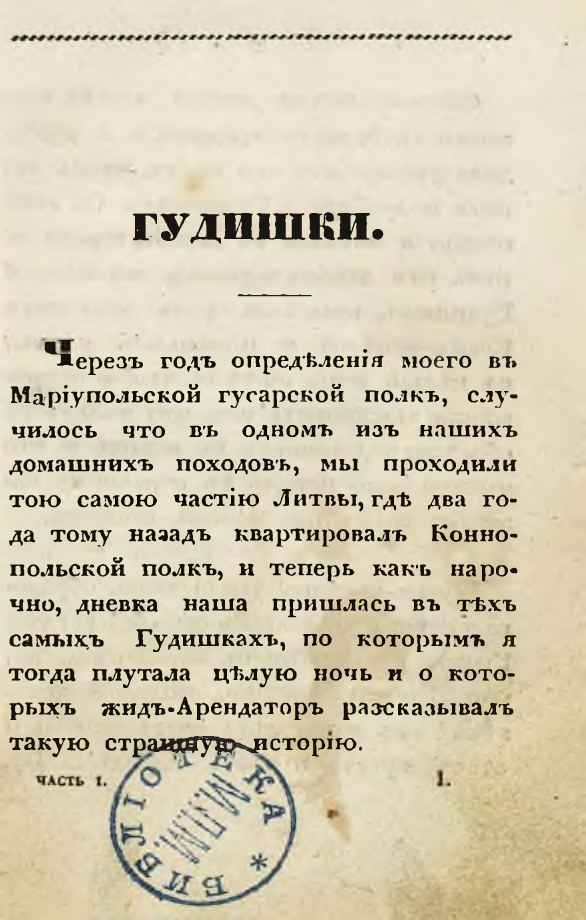ГУДИШКИ.
Черезъ годъ опредѣленія моего въ Маріупольской гусарской полкъ, случилось что въ одномъ изъ нашихъ домашнихъ походовъ, мы проходили тою самою частію Литвы, гдѣ два года тому назадъ квартировалъ Коннопольской полкъ, и теперь какъ нарочно, дневка наша пришлась въ тѣхъ самыхъ Гудишкахъ, по которымъ я тогда плутала цѣлую ночь и о которыхъ жидъ-Арендаторъ разсказывалъ такую страшную исторію.
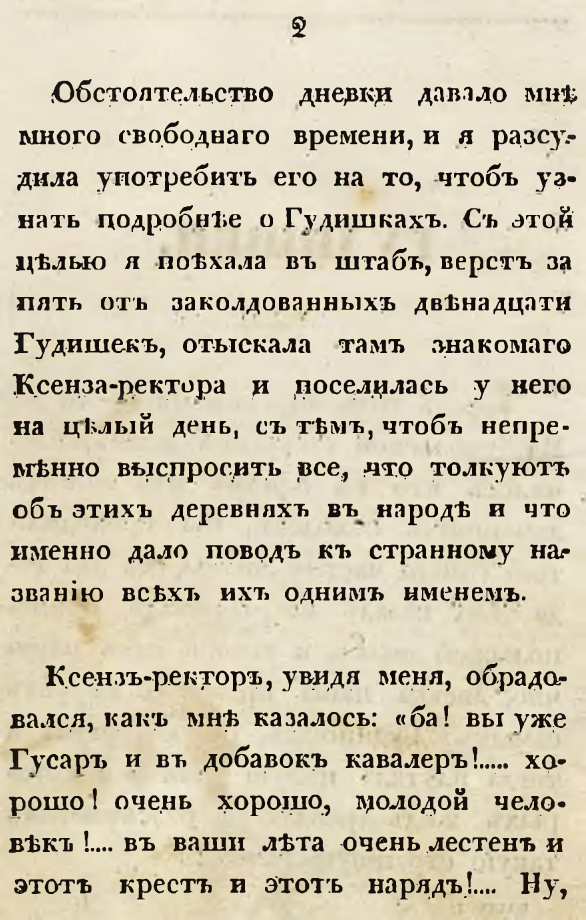2
Обстоятельство дневки давало мнѣ много свободнаго времени, и я разсудила употребить его на то, чтобъ узнать подробнѣе о Гудишкахъ. Съ этой цѣлью я поѣхала въ штабъ, верстъ за пять отъ заколдованныхъ двѣнадцати Гудишекъ, отыскала тамъ знакомаго Ксенза-ректора и поселилась у него на цѣлый день, съ тѣмъ, чтобъ непремѣнно выспросить все, что толкуютъ объ этихъ деревняхъ въ народѣ и что именно дало поводъ къ странному названію всѣхъ ихъ однимъ именемъ.
Ксензъ-ректоръ, увидя меня, обрадовался, какъ мнѣ казалось: «ба! вы уже Гусаръ и въ добавокъ кавалеръ!... хорошо! очень хорошо, молодой человѣкъ!... въ ваши лѣта очень лестенъ и этотъ крестъ и это тъ нарядъ!... Ну,
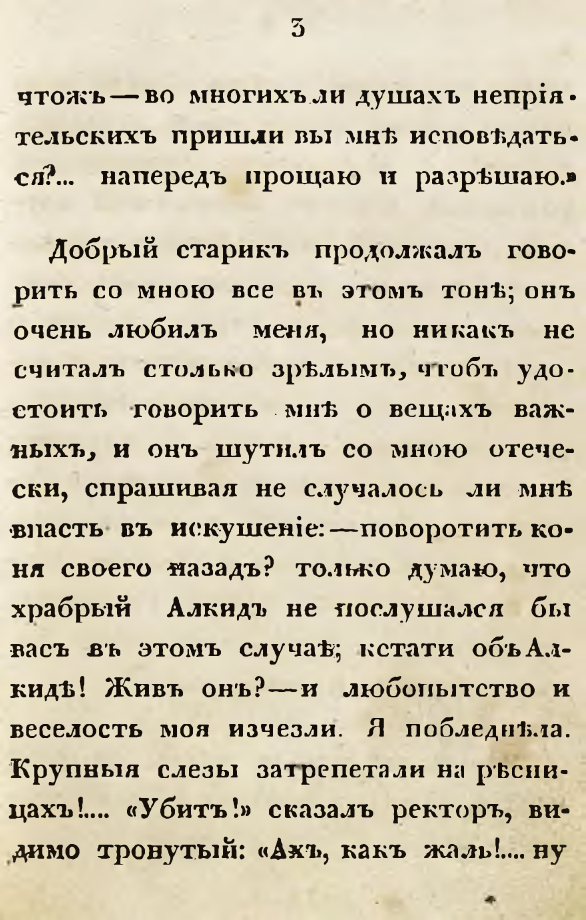3
чтожъ — во многихъ ли душахъ непріятельскихъ пришли вы мнъ исповедаться?... напередъ прощаю и разрѣшаю.»
Добрый старикъ продолжалъ говорить со мною все въ этомъ тонѣ; онъ очень любилъ меня, но никакъ не считалъ столько зрѣлымъ, чтобъ удостоить говорить мнѣ о вещахъ важныхъ, и онъ шутилъ со мною отечески, спрашивая не случалось ли мнѣ впасть въ искушеніе: — поворотить коня своего назадъ? только думаю, что храбрый Алкидъ не послушался бы васъ въ этомъ случаѣ; кстати объ Алкидѣ! Живъ онъ? — и любопытство и веселость моя изчезли. Я побледнѣла. Крупныя слезы затрепетали на рѣсницахъ!.. «Убитъ!» сказалъ ректоръ, видимо тронутый: «Ахъ, какъ жаль!... ну
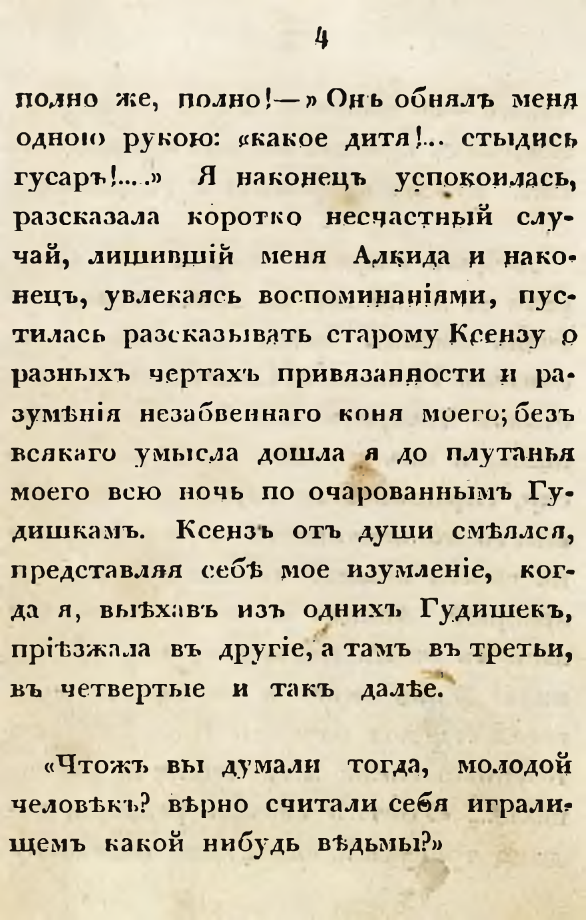4
полно же, полно!—» Онъ обнялъ меня одною рукою: «какое дитя!.. стыдись гусаръ!...» Я наконецъ успокоилась, разсказала коротко несчастный случай, лишившій меня Алкида и наконецъ, увлекаясь воспоминаніями, пустилась разсказывать старому Ксензу о разныхъ чертахъ привязанности и разумѣнія незабвеннаго коня моего; безъ всякаго умысла дошла я до плутанья моего всю ночь по очарованнымъ Гудишкамъ. Ксензь отъ души смѣялся, представляя себѣ мое изумленіе, когда я, выѣхавъ изъ однихъ Гудишекъ, пріѣзжала въ другіе, а тамъ въ третьи, въ четвертые и такъ далѣе.
«Чтожъ вы думали тогда, молодой человѣкь? вѣрно считали себя игралищемъ какой нибудь вѣдьмы?»
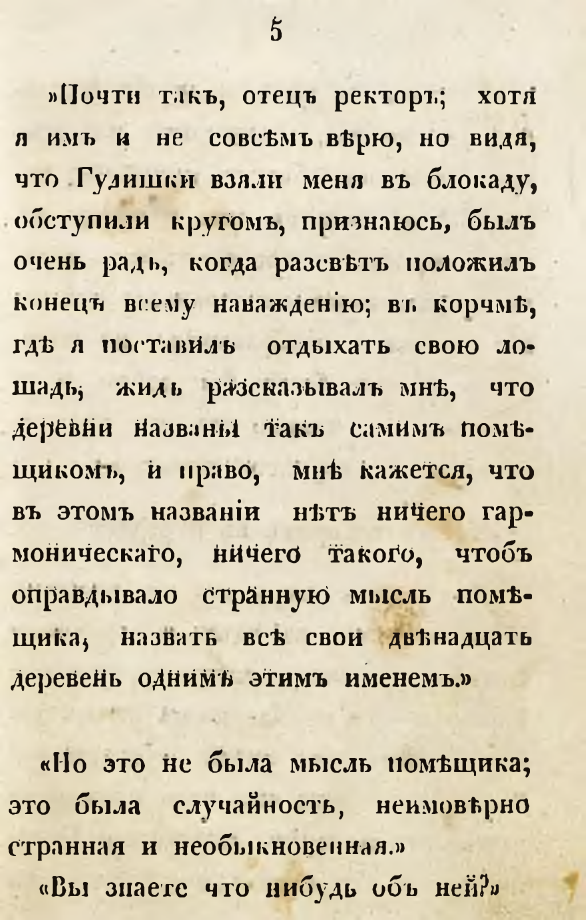5
«Почти такъ, отецъ ректоръ; хотя я имъ и не совсѣмъ вѣрю, но видя, что Гудишки взяли меня въ блокаду, обступили кругомъ, признаюсь, былъ очень радъ, когда разсвѣтъ положилъ конецъ всему наважденію; въ корчмѣ, гдѣ я поставилъ отдыхать свою лошадъ жидъ разсказывалъ мнѣ, что деревни названы такъ самимъ помѣщикомъ, и право, мнѣ кажется, что въ этомъ названіи нѣтъ ничего гармоническаго, ничего такого, чтобъ оправдывало странную мысль помѣщика, назвать всѣ свои двѣнадцать деревень одним этимъ именемъ.»
«Но это не была мысль помѣщика; это была случайность, неимовѣрно странная и необыкновенная.»
«Вы знаете что нибудь объ ней?»
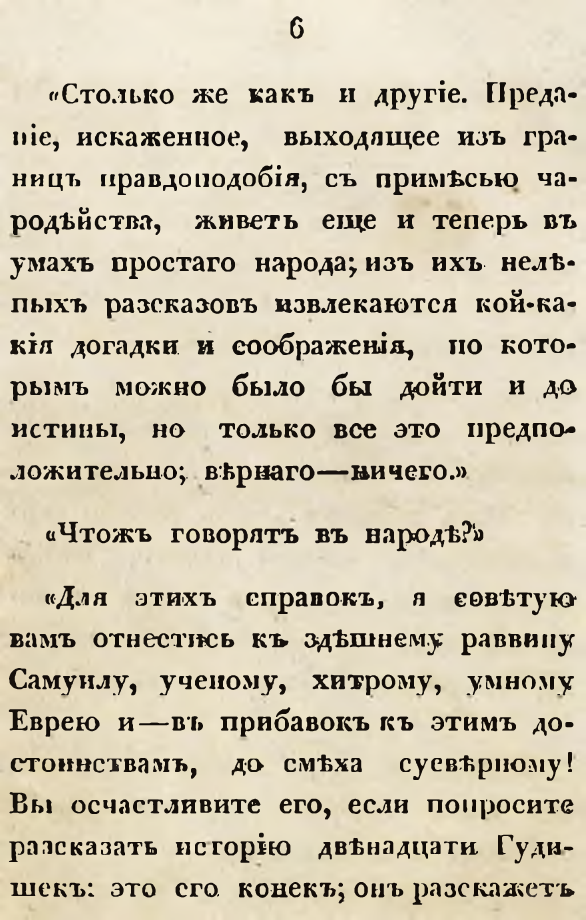6
«Столько же какъ и другіе. Преданіе, искаженное, выходящее изъ границъ правдоподобія, съ примѣсью чародѣйства, живетъ еще и теперь въ умахъ простаго народа; изъ ихъ нелѣпыхъ разсказовъ извлекаются кой-какія догадки и соображенія, по которымъ можно было бы дойти и до истины, но только все это предположительно; вѣрнаго — ничего.»
«Чтожъ говорятъ въ народѣ?»
«Для этихъ справокъ, я совѣтую вамъ отнестись къ здѣшнему раввину Самуилу, ученому, хитрому, умному Еврею и — въ прибавокъ къ этимъ достоинствамъ, до смѣха суевѣрному! Вы осчастливите его, если попросите разсказать исторію двѣнадцати Гудишекъ: это его конекъ; онъ разскажетъ
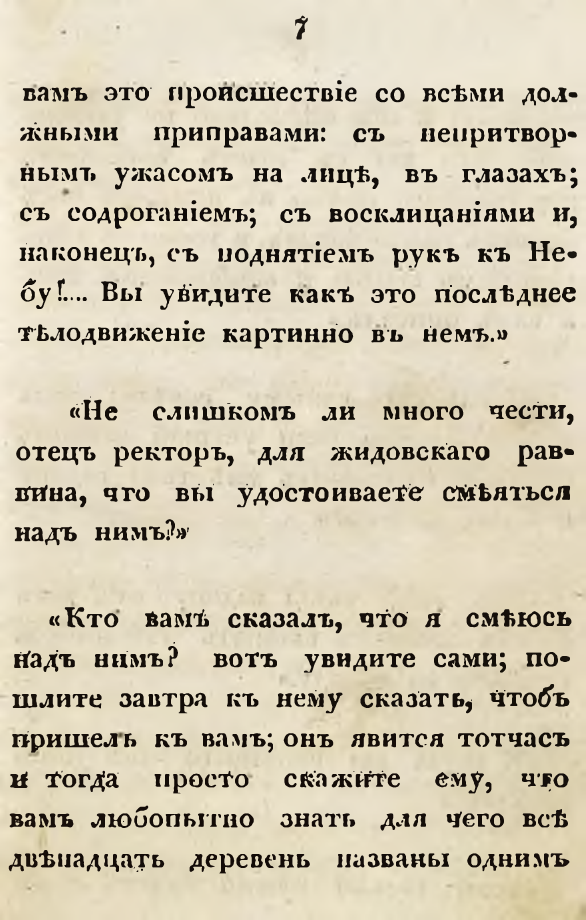7
вамъ это происшествіе со всѣми должными приправами: съ непритворнымъ ужасомъ на лицѣ, въ глазахъ; съ содроганіемъ; съ восклицаніями и, наконецъ, съ поднятіемъ рукъ къ Небу!… Вы увидите какъ это послѣднее тѣлодвиженіе картинно въ немъ.»
«Не слишкомъ ли много чести, отецъ ректоръ, для жидовскаго раввина, что вы удостоиваете смѣяться надъ нимъ?»
«Кто вамъ сказалъ, что я смѣюсь надъ нимъ? вотъ увидите сами; пошлите завтра къ нему сказать, чтобъ пришелъ къ вамъ; онъ явится тотчасъ и тогда просто скажите ему, что вамъ любопытно знать для чего всѣ двѣнадцать деревень названы однимъ
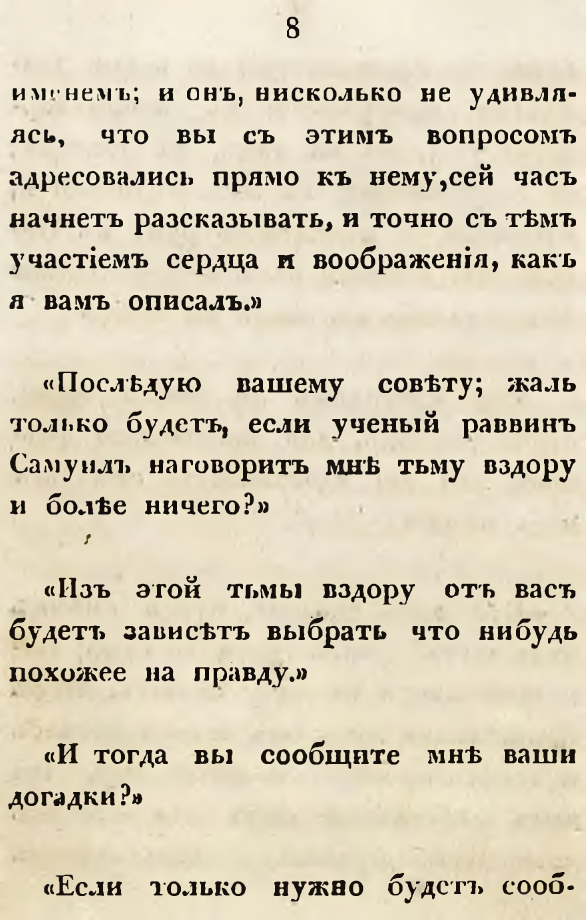8
именемъ; и онъ, нисколько не удивляясь, что вы съ этимъ вопросомъ адресовались прямо къ нему, сей часъ начнетъ разсказывать, и точно съ тѣмъ участіемъ сердца и воображенія, какъ я вамъ описалъ.»
«Послѣдую вашему совѣту; жаль только будетъ, если ученый раввинъ Самуилъ наговоритъ мнѣ тьму вздору и болѣе ничего?»
«Изъ этой тьмы вздору отъ васъ будетъ зависѣть выбрать что нибудь похожее на правду.»
«И тогда вы сообщите мнѣ ваши догадки?»
«Если только нужно будетъ сооб-